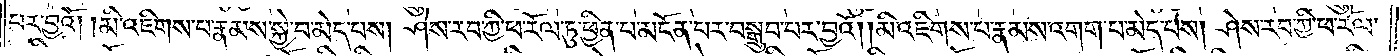པར་བྱའོ། །མི་འཇིགས་པ་རྣམས་སྐྱེ་བ་མེད་པས། ཤེས་རབ་ཀྱི་ཕ་རོལ་ཏུ་ཕྱིན་པ་མངོན་པར་བསྒྲུབ་པར་བྱའོ། །མི་འཇིགས་པ་རྣམས་འགག་པ་མེད་པས། ཤེས་རབ་ཀྱི་ཕ་རོལ་
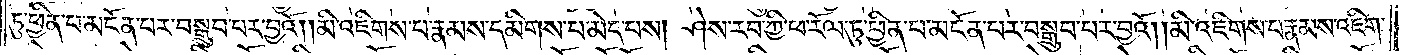ཏུ་ཕྱིན་པ་མངོན་པར་བསྒྲུབ་པར་བྱའོ། །མི་འཇིགས་པ་རྣམས་དམིགས་པ་མེད་པས། ཤེས་རབ་ཀྱི་ཕ་རོལ་ཏུ་ཕྱིན་པ་མངོན་པར་བསྒྲུབ་པར་བྱའོ། །མི་འཇིགས་པ་རྣམས་འཇིག་
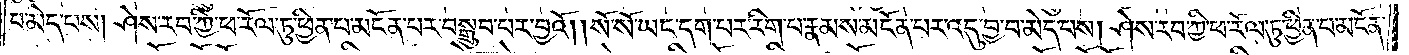པ་མེད་པས། ཤེས་རབ་ཀྱི་ཕ་རོལ་ཏུ་ཕྱིན་པ་མངོན་པར་བསྒྲུབ་པར་བྱའོ། །སོ་སོ་ཡང་དག་པར་རིག་པ་རྣམས་མངོན་པར་འདུ་བྱ་བ་མེད་པས། ཤེས་རབ་ཀྱི་ཕ་རོལ་ཏུ་ཕྱིན་པ་མངོན་
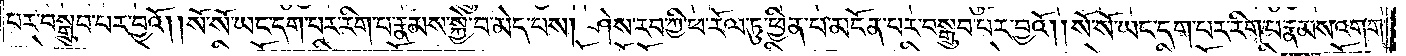པར་བསྒྲུབ་པར་བྱའོ། །སོ་སོ་ཡང་དག་པར་རིག་པ་རྣམས་སྐྱེ་བ་མེད་པས། ཤེས་རབ་ཀྱི་ཕ་རོལ་ཏུ་ཕྱིན་པ་མངོན་པར་བསྒྲུབ་པར་བྱའོ། །སོ་སོ་ཡང་དག་པར་རིག་པ་རྣམས་འགག་
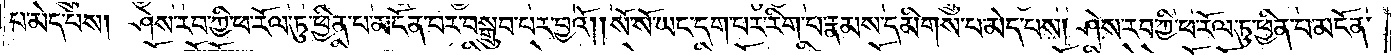པ་མེད་པས། ཤེས་རབ་ཀྱི་ཕ་རོལ་ཏུ་ཕྱིན་པ་མངོན་པར་བསྒྲུབ་པར་བྱའོ། །སོ་སོ་ཡང་དག་པར་རིག་པ་རྣམས་དམིགས་པ་མེད་པས། ཤེས་རབ་ཀྱི་ཕ་རོལ་ཏུ་ཕྱིན་པ་མངོན་
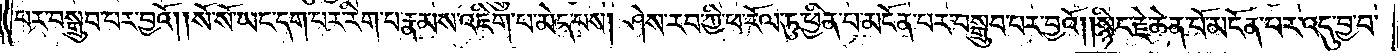པར་བསྒྲུབ་པར་བྱའོ། །སོ་སོ་ཡང་དག་པར་རིག་པ་རྣམས་འཇིག་པ་མེད་པས། ཤེས་རབ་ཀྱི་ཕ་རོལ་ཏུ་ཕྱིན་པ་མངོན་པར་བསྒྲུབ་པར་བྱའོ། །སྙིང་རྗེ་ཆེན་པོ་མངོན་པར་འདུ་བྱ་བ་
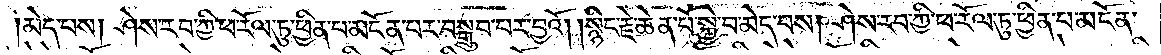མེད་པས། ཤེས་རབ་ཀྱི་ཕ་རོལ་ཏུ་ཕྱིན་པ་མངོན་པར་བསྒྲུབ་པར་བྱའོ། །སྙིང་རྗེ་ཆེན་པོ་སྐྱེ་བ་མེད་པས། ཤེས་རབ་ཀྱི་ཕ་རོལ་ཏུ་ཕྱིན་པ་མངོན་
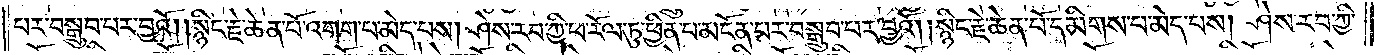པར་བསྒྲུབ་པར་བྱའོ། །སྙིང་རྗེ་ཆེན་པོ་འགག་པ་མེད་པས། ཤེས་རབ་ཀྱི་ཕ་རོལ་ཏུ་ཕྱིན་པ་མངོན་པར་བསྒྲུབ་པར་བྱའོ། །སྙིང་རྗེ་ཆེན་པོ་དམིགས་པ་མེད་པས། ཤེས་རབ་ཀྱི་
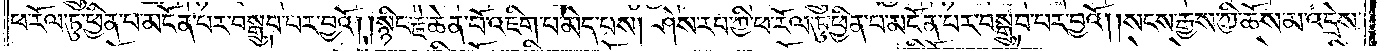ཕ་རོལ་ཏུ་ཕྱིན་པ་མངོན་པར་བསྒྲུབ་པར་བྱའོ། །སྙིང་རྗེ་ཆེན་པོ་འཇིག་པ་མེད་པས། ཤེས་རབ་ཀྱི་ཕ་རོལ་ཏུ་ཕྱིན་པ་མངོན་པར་བསྒྲུབ་པར་བྱའོ། །སངས་རྒྱས་ཀྱི་ཆོས་མ་འདྲེས་
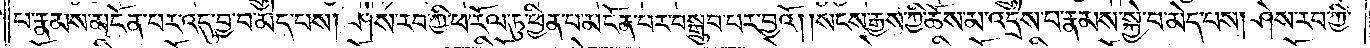པ་རྣམས་མངོན་པར་འདུ་བྱ་བ་མེད་པས། ཤེས་རབ་ཀྱི་ཕ་རོལ་ཏུ་ཕྱིན་པ་མངོན་པར་བསྒྲུབ་པར་བྱའོ། །སངས་རྒྱས་ཀྱི་ཆོས་མ་འདྲེས་པ་རྣམས་སྐྱེ་བ་མེད་པས། ཤེས་རབ་ཀྱི་
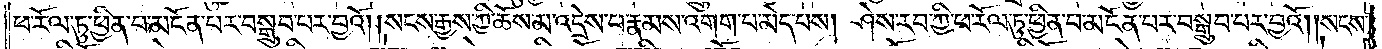ཕ་རོལ་ཏུ་ཕྱིན་པ་མངོན་པར་བསྒྲུབ་པར་བྱའོ། །སངས་རྒྱས་ཀྱི་ཆོས་མ་འདྲེས་པ་རྣམས་འགག་པ་མེད་པས། ཤེས་རབ་ཀྱི་ཕ་རོལ་ཏུ་ཕྱིན་པ་མངོན་པར་བསྒྲུབ་པར་བྱའོ། །སངས་
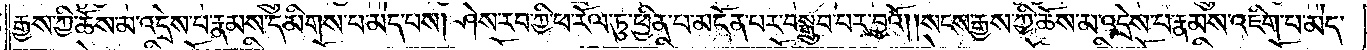རྒྱས་ཀྱི་ཆོས་མ་འདྲེས་པ་རྣམས་དམིགས་པ་མེད་པས། ཤེས་རབ་ཀྱི་ཕ་རོལ་ཏུ་ཕྱིན་པ་མངོན་པར་བསྒྲུབ་པར་བྱའོ། །སངས་རྒྱས་ཀྱི་ཆོས་མ་འདྲེས་པ་རྣམས་འཇིག་པ་མེད་
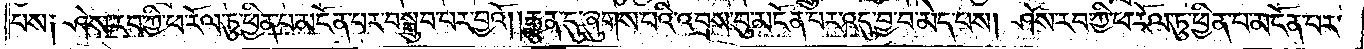པས༑ ཤེས་རབ་ཀྱི་ཕ་རོལ་ཏུ་ཕྱིན་པ་མངོན་པར་བསྒྲུབ་པར་བྱའོ། །རྒྱུན་དུ་ཞུགས་པའི་འབྲས་བུ་མངོན་པར་འདུ་བྱ་བ་མེད་པས། ཤེས་རབ་ཀྱི་ཕ་རོལ་ཏུ་ཕྱིན་པ་མངོན་པར་
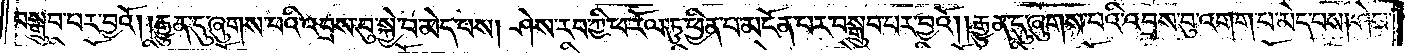བསྒྲུབ་པར་བྱའོ། །རྒྱུན་དུ་ཞུགས་པའི་འབྲས་བུ་སྐྱེ་བ་མེད་པས། ཤེས་རབ་ཀྱི་ཕ་རོལ་ཏུ་ཕྱིན་པ་མངོན་པར་བསྒྲུབ་བར་བྱའོ། །རྒྱུན་དུ་ཞུགས་པའི་འབྲས་བུ་འགག་པ་མེད་པས། ཤེས་
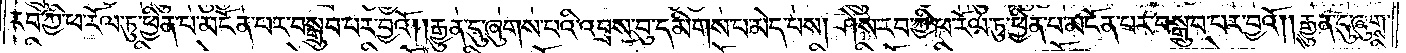རབ་ཀྱི་ཕ་རོལ་ཏུ་ཕྱིན་པ་མངོན་པར་བསྒྲུབ་པར་བྱའོ། །རྒྱུན་དུ་ཞུགས་པའི་འབྲས་བུ་དམིགས་པ་མེད་པས། ཤེས་རབ་ཀྱི་ཕ་རོལ་ཏུ་ཕྱིན་པ་མངོན་པར་བསྒྲུབ་པར་བྱའོ། །རྒྱུན་དུ་ཞུགས་
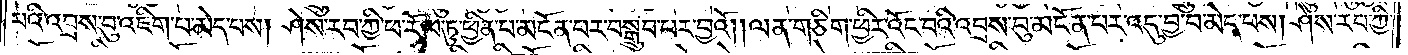པའི་འབྲས་བུ་འཇིག་པ་མེད་པས། ཤེས་རབ་ཀྱི་ཕ་རོལ་ཏུ་ཕྱིན་པ་མངོན་པར་བསྒྲུབ་པར་བྱའོ། །ལན་གཅིག་ཕྱིར་འོང་བའི་འབྲས་བུ་མངོན་པར་འདུ་བྱ་བ་མེད་པས། ཤེས་རབ་ཀྱི་
